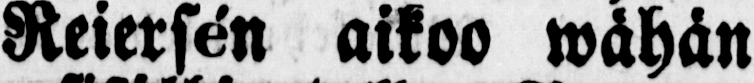Reiersé n aikoo wähän
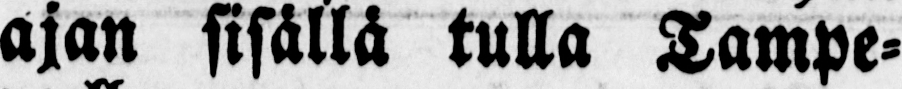ajan sisällä tulla Tampe-
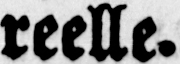reelle.
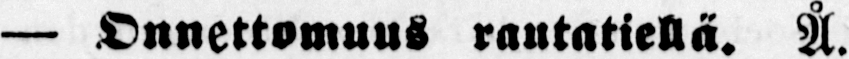— Onnettomuus rautatiellä. Å.
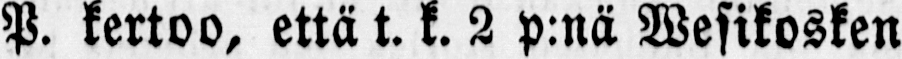P. kertoo, että t. k. 2 p:nä Wesikosken
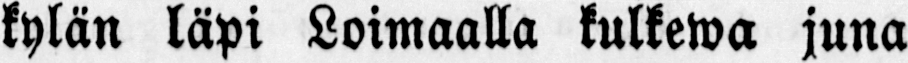kylän läpi Loimaalla kulkewa juna
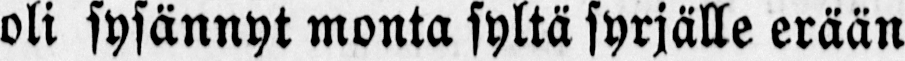oli sysännyt monta syltä syrjälle erään
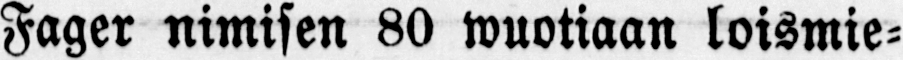Fager nimisen 80 wuotiaan loismie-
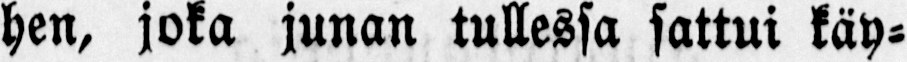hen, joka junan tullessa sattui käy-
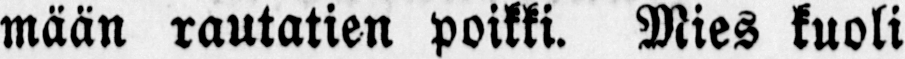mään rautatien poikki. Mies kuoli
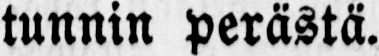tunnin perästä.
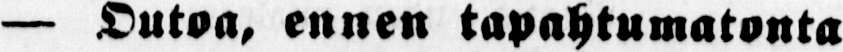— Outoa, ennen tapahtumatonta
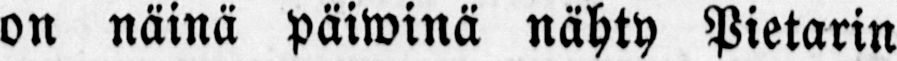on näinä päiwinä nähty Pietarin
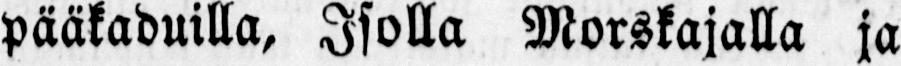pääkaduilla. Isolla Morskajalla ja
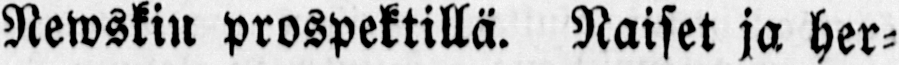Newskin prospektillä. Naiset ja her-
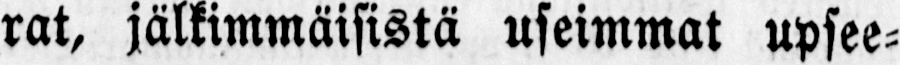rat, jälkimmäisistä useimmat upsee-
